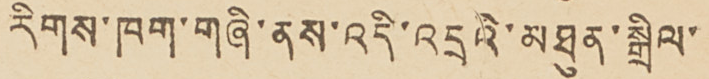རིགས་ཁག་གཞི་ནས་འདི་འདྲའི་མཐུན་སྒྲིལ་
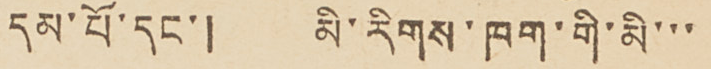དམ་པོ་དང་། མི་རིགས་ཁག་གི་མི་་་
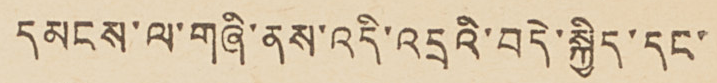དམངས་ལ་གཞི་ནས་འདི་འདྲའི་བདེ་སྐྱིད་དང་།
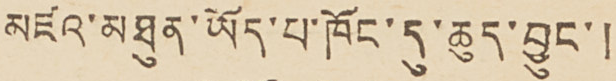མཛའ་མཐུན་ཡོད་པ་ཁོང་དུ་ཆུད་བྱུང་།
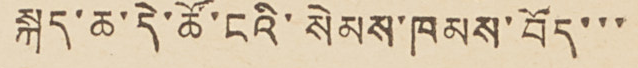སྐད་ཆ་དེ་ཚོ་ངའི་སེམས་ཁམས་བོད་་་
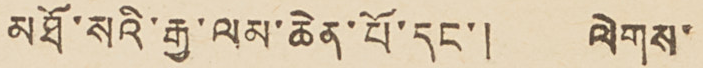མཐོ་སའི་རྒྱ་ལམ་ཆེན་པོ་དང་། ལེགས་
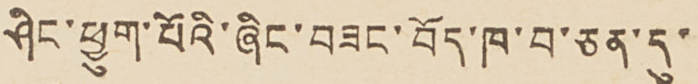ཤིང་ཕྱུག་པོའི་ཞིང་བཟང་བོད་ཁ་བ་ཅན་དུ་
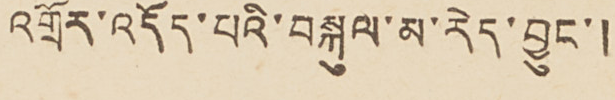འགྲོར་འདོད་པའི་བསྐུལ་མ་རེད་བྱུང་།
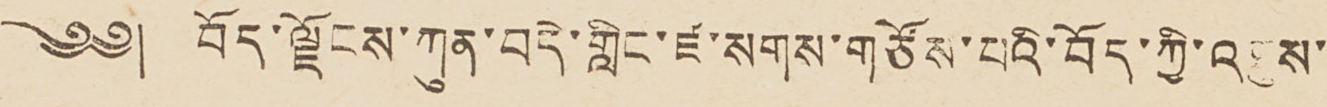༄༅། བོད་ལྗོངས་ཀུན་བདེ་གླིང་ཛ་སགས་གཙོས་པའི་བོད་ཀྱི་འཐུས་
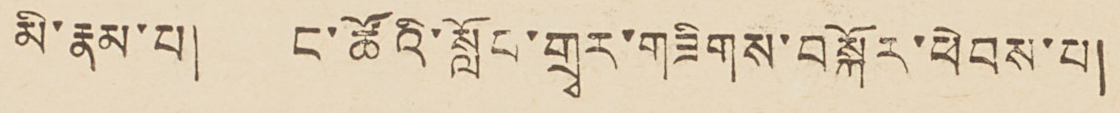མི་རྣམ་པ། ང་ཚོའི་སློབ་གྲྭར་གཟིགས་བསྐོར་ཕེབས་པ།
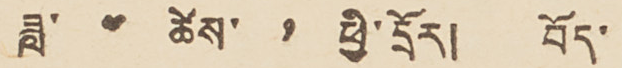ཟླ་ ༤ ཚེས་ ༡ ཕྱི་དྲོར། བོད་
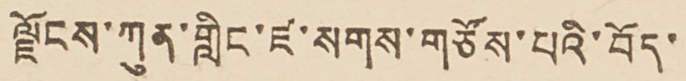ལྗོངས་ཀུན་གླིང་ཛ་སགས་གཙོས་པའི་བོད་
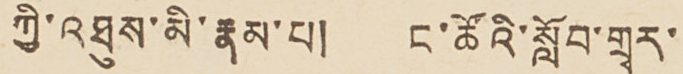ཀྱི་འཐུས་མི་རྣམ་པ། ང་ཚོའི་སློབ་གྲྭར་
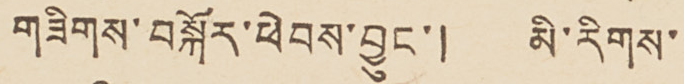གཟིགས་བསྐོར་ཕེབས་བྱུང་། མི་རིགས་
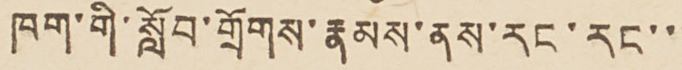ཁག་གི་སློབ་གྲོགས་རྣམས་ནས་རང་རང་་
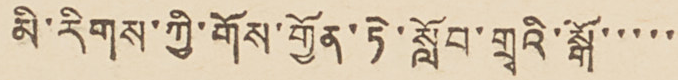མི་རིགས་ཀྱི་གོས་གྱོན་ཏེ་སློབ་གྲྭའི་སྒོ་་་་་
